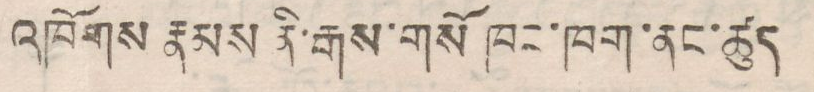འཁོགས རྣམས ནི་རྒས་གསོ ཁང་ཁག་ནང་ཚུད
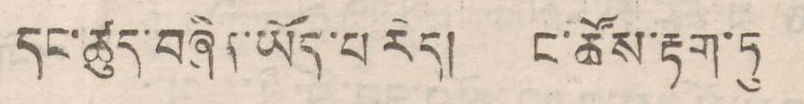དང་ཚུད་བཞིན་ཡོད་པ རེད། ང་ཚོས་རྟག་ཏུ
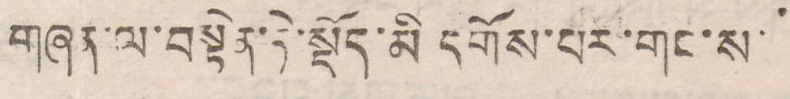གཞན་ལ་བསྟེན་ཏེ་སྡོད་མི་དགོས་པར་གང་ས་
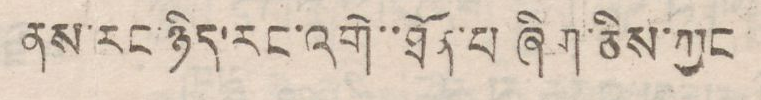ནས་རང་ཉིད་རང་འགེ་་ཐོན་པ ཞིག་ཅིས་ཀྱང
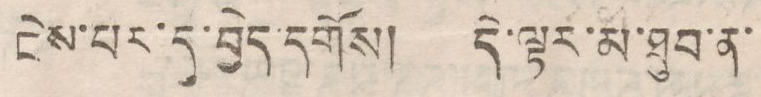ངེས་པར་དུ་བྱེད་དགོས། དེ་ལྟར་མ་ཐུབ་ན་
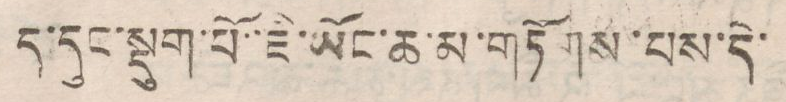ད་དུང་སྡུག་པོ་ཇི་ཡོང་ཆ་མ་གཏོགས་པས་དེ་
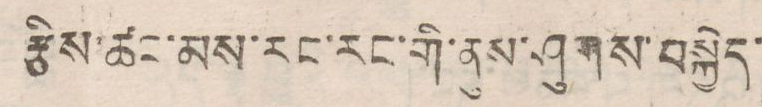རྩིས་ཚང་མས་རང་རང་གི་ནུས་ཤུགས་བསྐྱེད་
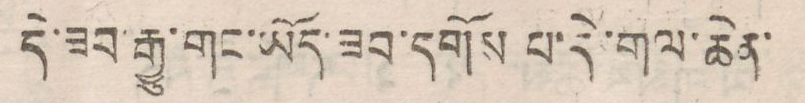དེ་ཟབ་རྒྱུ་གང་ཡོད་ཟབ་དགོས པ་དེ་གལ་ཆེན་
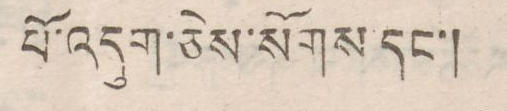པོ་འདུག་ཅེས་སོགས་དང་།
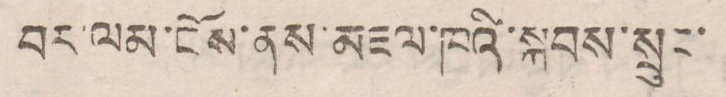བར་ལམ་ངོས་ནས་མཇལ་ཁའི་སྐབས་སྲུང་
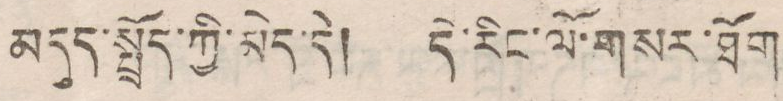མདུད་སྤྲོད་ཀྱི་མེད་དེ། དེ་རིང་གསར་ཐོག
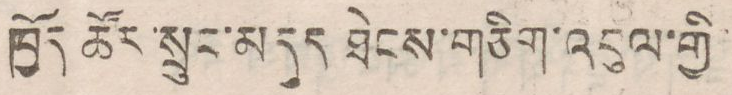ཁྱོད་ཚིར་སྲུང་མདུད ཐེངས་གཅིག་འབུས་གྱི་
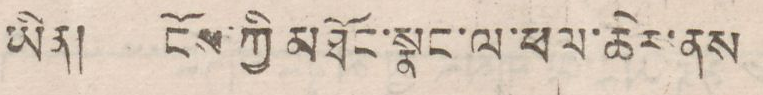ཡིན། ངོས་ཀྱི་མཐོང་སྣང་ལ་ཕལ་ཆེར་ནས
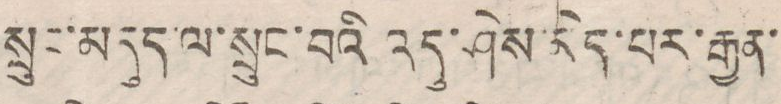སྲུང་མདུད་ལ་སྲུང་བའི འདུ་ཤེས་མེད་པར་རྒྱན་
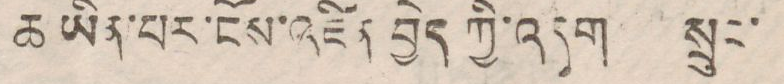ཆ་ཡིན་པར་ངོས་འཛིན བྱེད ཀྱི་འདུག སྲུང་
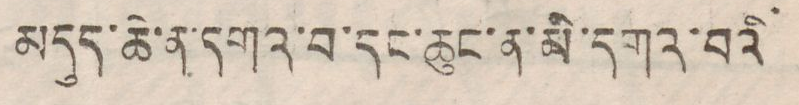མདུད་ཆེ་ན་དགའ་བ་དང་ ཆུང་ན་མི་དགའ་བའི་
